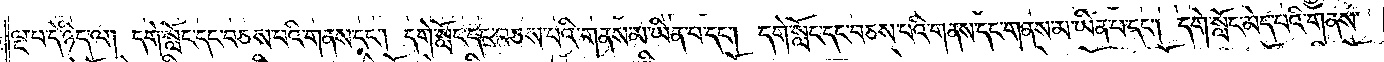ལྔ་པ་དེ་ཉིད་ལ། དགེ་སློང་དང་བཅས་པའི་གནས་དང༌། དགེ་སློང་དང་བཅས་པའི་གནས་མ་ཡིན་པ་དང༌། དགེ་སློང་དང་བཅས་པའི་གནས་དང་གནས་མ་ཡིན་པ་དང༌། དགེ་སློང་མེད་པའི་གནས་
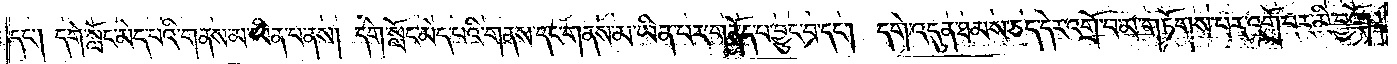དང༌། དགེ་སློང་མེད་པའི་གནས་མ་ཡིན་པ་ནས། དགེ་སློང་མེད་པའི་གནས་དང་གནས་མ་ཡིན་པར་གནོད་པ་བྱུང་བ་དང༌། དགེ་འདུན་ཐམས་ཅད་དེར་འགྲོ་བ་མ་གཏོགས་པར་འགྲོ་བར་མི་བྱའོ། །
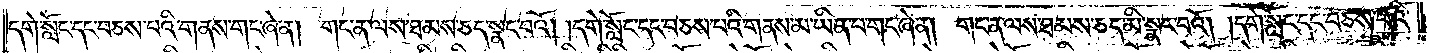དགེ་སློང་དང་བཅས་པའི་གནས་གང་ཞེ་ན། གང་ན་ལས་ཐམས་ཅད་སྣང་བའོ། །དགེ་སློང་དང་བཅས་པའི་གནས་མ་ཡིན་པ་གང་ཞེ་ན། གང་ན་ལས་ཐམས་ཅད་མི་སྣང་བའོ། །དགེ་སློང་དང་བཅས་པའི་
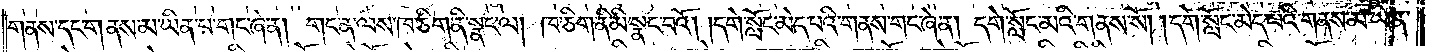གནས་དང་གནས་མ་ཡིན་པ་གང་ཞེ་ན། གང་ན་ལས་ཁ་ཅིག་ནི་སྣང་ལ། ཁ་ཅིག་ནི་མི་སྣང་བའོ། །དགེ་སློང་མེད་པའི་གནས་གང་ཞེ་ན། དགེ་སློང་མའི་གནས་སོ། །དགེ་སློང་མེད་པའི་གནས་མ་ཡིན་
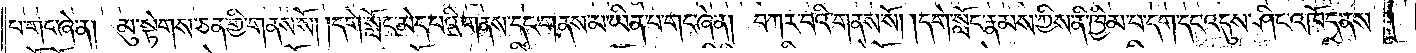པ་གང་ཞེ་ན། མུ་སྟེགས་ཅན་གྱི་གནས་སོ། །དགེ་སློང་མེད་པའི་གནས་དང་གནས་མ་ཡིན་པ་གང་ཞེ་ན། བཀར་བའི་གནས་སོ། །དགེ་སློང་རྣམས་ཀྱིས་ནི་ཁྱིམ་པ་དག་དང་འདུས་ཤིང་འཁོད་ནས་།
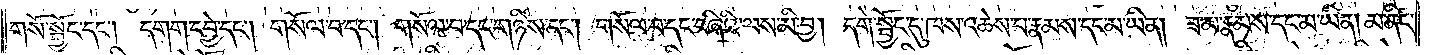གསོ་སྦྱོང་དང༌། དགག་དབྱེ་དང༌། གསོལ་བ་དང༌། གསོལ་བ་དང་གཉིས་དང༌། གསོལ་བ་དང་བཞིའི་ལས་མི་བྱ། དགེ་སྦྱོང་དུ་ཁས་འཆེས་པ་རྣམས་དང་མ་ཡིན། ཟ་མ་རྣམས་དང་མ་ཡིན། མ་ནིང་
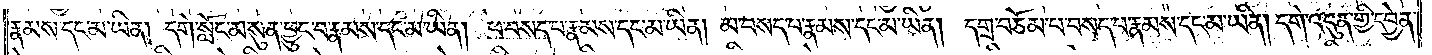རྣམས་དང་མ་ཡིན། དགེ་སློང་མ་སུན་བྱུང་བ་རྣམས་དང་མ་ཡིན། ཕ་བསད་པ་རྣམས་དང་མ་ཡིན། མ་བསད་པ་རྣམས་དང་མ་ཡིན། དགྲ་བཅོམ་པ་བསད་པ་རྣམས་དང་མ་ཡིན། དགེ་འདུན་གྱི་དབྱེན་
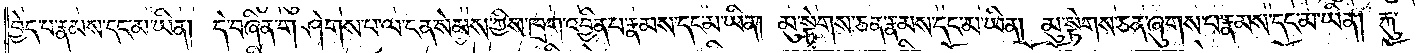བྱེད་པ་རྣམས་དང་མ་ཡིན། དེ་བཞིན་གཤེགས་པ་ལ་ངན་སེམས་ཀྱིས་ཁྲག་འབྱིན་པ་རྣམས་དང་མ་ཡིན། མུ་སྟེགས་ཅན་རྣམས་དང་མ་ཡིན། མུ་སྟེགས་ཅན་ཞུགས་པ་རྣམས་དང་མ་ཡིན། རྐུ་
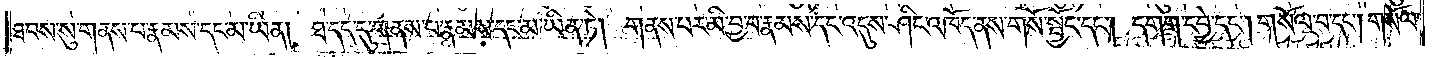ཐབས་སུ་གནས་པ་རྣམས་དང་མ་ཡིན། ཐ་དད་དུ་གནས་པ་རྣམས་དང་མ་ཡིན་ཏེ། གནས་པར་མི་བྱ་བ་རྣམས་དང་འདུས་ཤིང་འཁོད་ནས་གསོ་སྦྱོང་དང༌། དགག་དབྱེ་དང༌། གསོལ་བ་དང༌། གསོལ་
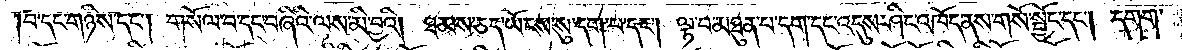བ་དང་གཉིས་དང༌། གསོལ་བ་དང་བཞིའི་ལས་མི་བྱའི། ཐམས་ཅད་ཡོངས་སུ་དག་པ་དང༌། ལྟ་བ་མཐུན་པ་དག་དང་འདུས་ཤིང་འཁོད་ནས་གསོ་སྦྱོང་དང༌། དགག་
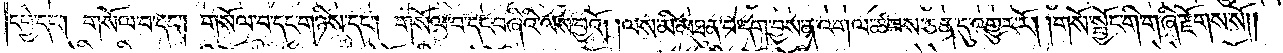དབྱེ་དང༌། གསོལ་བ་དང༌། གསོལ་བ་དང་གཉིས་དང༌། གསོལ་བ་དང་བཞིའི་ལས་བྱའོ། །ལས་མི་མཐུན་པ་དག་བྱས་ན་འགལ་ཚབས་ཅན་དུ་འགྱུར་རོ། །གསོ་སྦྱོང་གི་གཞི་རྫོགས་སོ༎
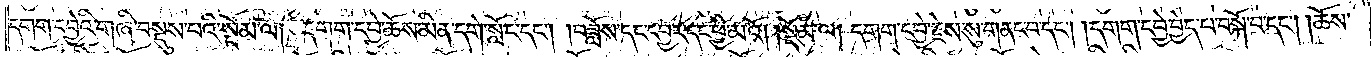དགག་དབྱེའི་གཞི་བསྡུས་པའི་སྡོམ་ལ། དགག་དབྱེ་ཆོས་མིན་དགེ་སློང་དང༌། །བཟློས་དང་དབྱར་དང་ཕྱི་མའོ། །སྡོམ་ལ། དགག་དབྱེ་རྗེས་སུ་གནང་བ་དང༌། །དགག་དབྱེ་བྱེད་པ་བསྐོ་བ་དང༌། །ཆོས་
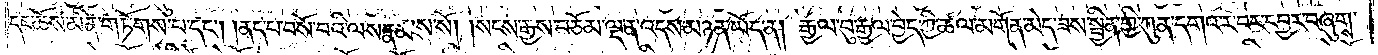དང་ཆོས་མིན་གཏོགས་པ་དང༌། །ནད་པ་བསོ་བའི་ལས་རྣམས་སོ། །སངས་རྒྱས་བཅོམ་ལྡན་འདས་མཉན་ཡོད་ན། རྒྱལ་བུ་རྒྱལ་བྱེད་ཀྱི་ཚལ་མགོན་མེད་ཟས་སྦྱིན་གྱི་ཀུན་དགའ་ར་བར་དབྱར་བཞུགས་
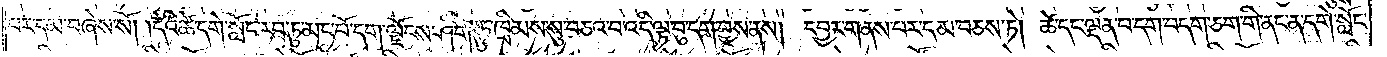པར་དམ་བཞེས་སོ། །དེའི་ཚེ་དགེ་སློང་རབ་ཏུ་མང་པོ་དག་ལྗོངས་ཤིག་ཏུ་ཁྲིམས་སུ་བཅའ་བ་འདི་ལྟ་བུ་དག་བྱས་ནས། དབྱར་གནས་པར་དམ་བཅས་ཏེ། ཚེ་དང་ལྡན་པ་དག་བདག་ཅག་གི་ནང་ན་དགེ་སློང་
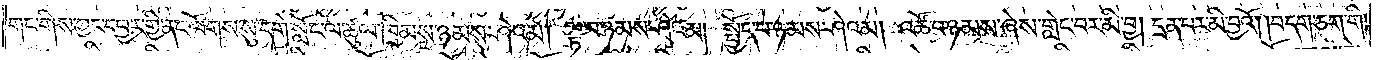གང་གིས་ཀྱང་དབྱར་གྱི་ནང་ལོགས་སུ་དགེ་སློང་ལ་ཚུལ་ཁྲིམས་ཉམས་ཤེའམ། ལྟ་བ་ཉམས་ཤེའམ། སྤྱོད་པ་ཉམས་ཤེའམ། འཚོ་བ་ཉམས་ཞེས་གླེང་བར་མི་བྱ། དྲན་པར་མི་བྱའོ། །བདག་ཅག་གི་
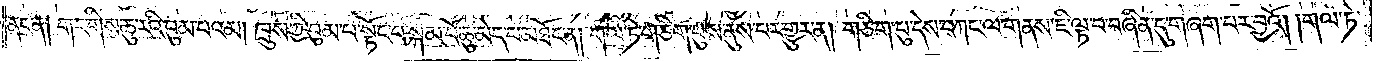ནང་ན། གང་གིས་ཆུ་རའི་བུམ་པའམ། ཁྲུས་ཀྱི་བུམ་པ་སྟོང་པ་སྐམ་པོ་ཆུ་མེད་པ་མཐོང་ན། གལ་ཏེ་གཅིག་པུས་ནུས་པར་གྱུར་ན། གཅིག་པུ་དེས་བཀང་ལ་གནས་ཇི་ལྟ་བ་བཞིན་དུ་གཞག་པར་བྱའོ། །གལ་ཏེ་
